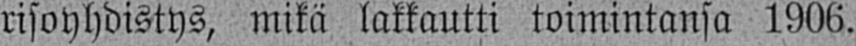risoyhdistys, mikä lakkautti toimintansa 1906.
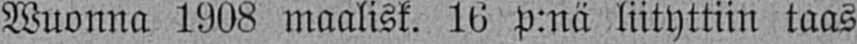Wuonna 1908 maalisk. 16 p:nä liityttiin taas
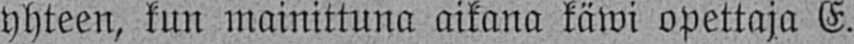yhteen, kun mainittuna aikana käwi opettaja E.
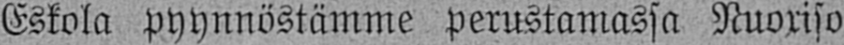Eskola pyynnöstämme perustamassa Nuoriso-
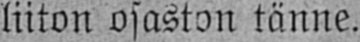liiton osaston tänne.
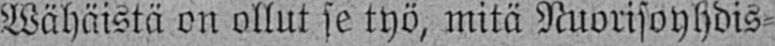Wähäistä on ollut se työ, mitä Nuorisoyhdis-
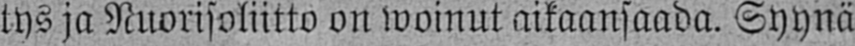tys ja Nuorisoliitto on woinut aikaansaada. Syynä
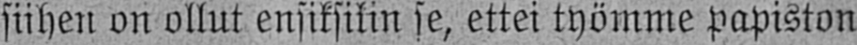siihen on ollut ensiksikin se, ettei työmme papiston
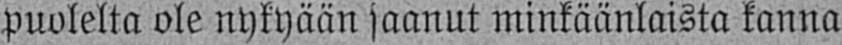puolelta ole nykyään saanut minkäänlaista kanna-
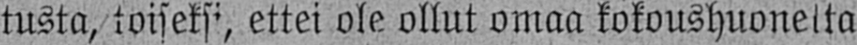tusta, toiseksi, ettei ole ollut omaa kokoushuonelta
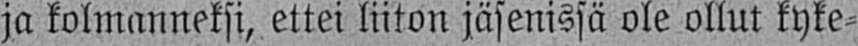ja kolmanneksi, ettei liiton jäsenissä ole ollut kyke-
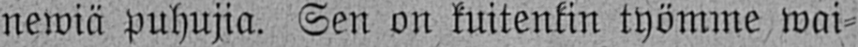newiä puhujia. Sen on kuitenkin työmme wai-
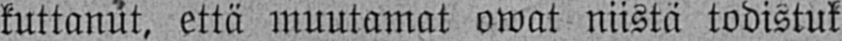kuttanut, että muutamat owat niistä todistuk-
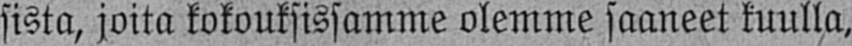sista, joita kokouksissamme olemme saaneet kuulla,
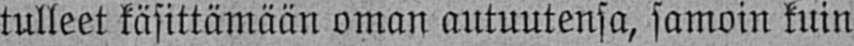tulleet käsittämään oman autuutensa, samoin kuin
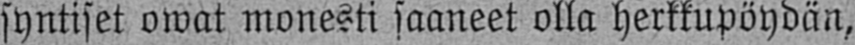syntiset owat monesti saaneet olla herkkupöydän,
